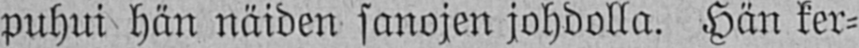puhui hän näiden sanojen johdolla. Hän ker-
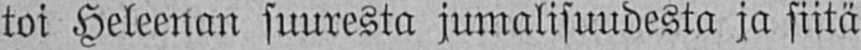toi Heleenan suuresta jumalisuudesta ja siitä
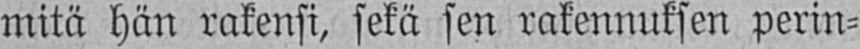mitä hän rakensi, sekä sen rakennuksen perin-
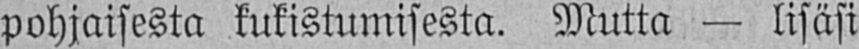pohjaisesta kukistumisesta. Mutta — lisäsi
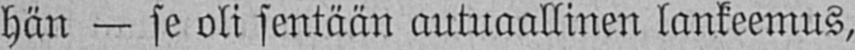hän — se oli sentään autuaallinen lankeemus,
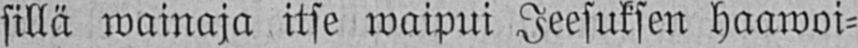sillä wainaja itse waipui Jeesuksen haawoi-
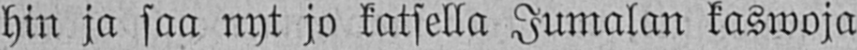hin ja saa nyt jo katsella Jumalan kaswoja
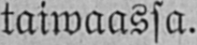taiwaassa.
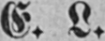E. L.
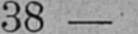38
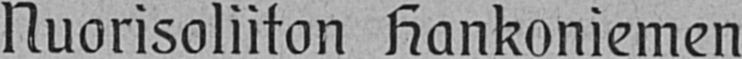Nuorisoliiton Hankoniemen
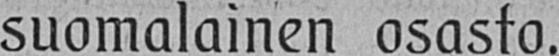suomalainen osasto.
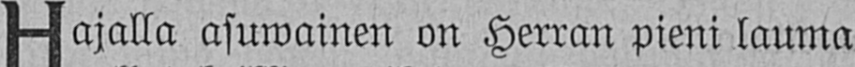Hajalla asuwainen on Herran pieni lauma
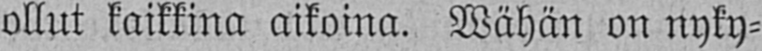ollut kaikkina aikoina. Wähän on nyky-
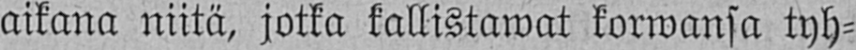aikana niitä, jotka kallistawat korwansa tyh-
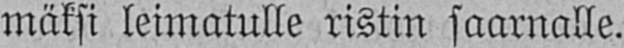mäksi leimatulle ristin saarnalle.
